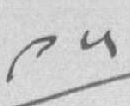༩༥
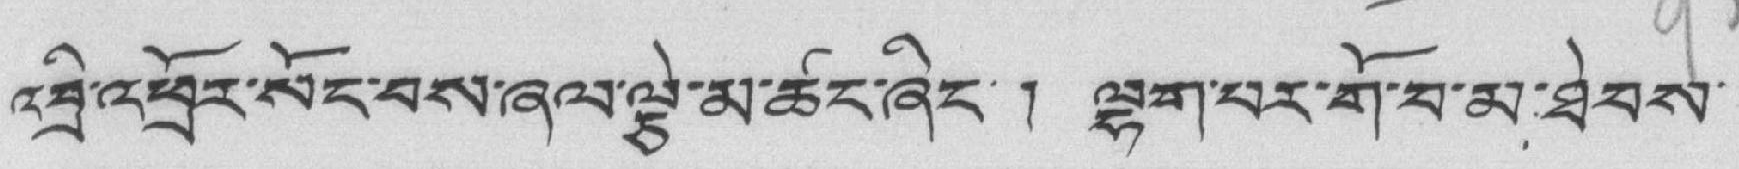འབྲི་འཕྲོར་སོང་བས་ཞལ་ལྕེ་མ་ཚང་ཞིང་ ། ལྷག་པར་གོ་བ་མ་ཐེབས་
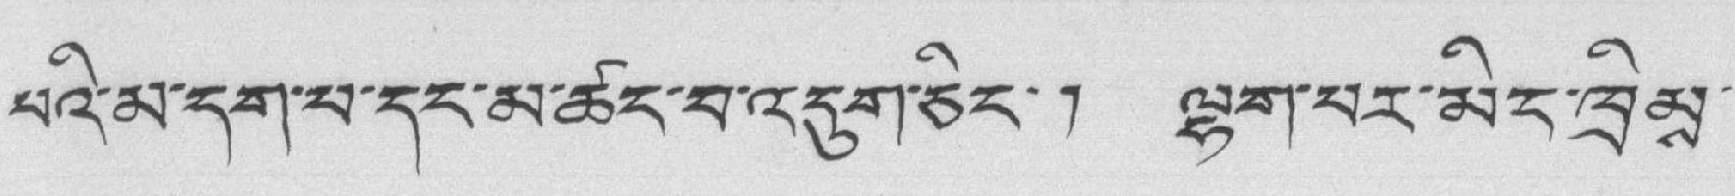པའི་མ་དག་པ་དང་མ་ཚང་བ་འདུག་ཅིང་། ལྷག་པར་མིང་ཁྲིམས་
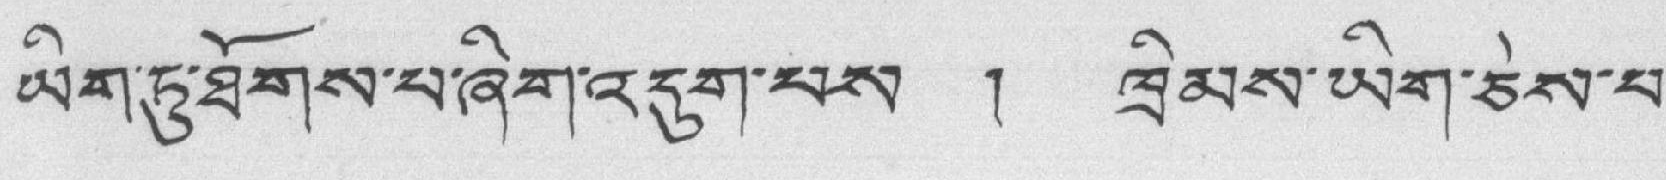ཡིག་ཏུ་ཐོགས་པ་ཞིག་འདུག་པས ། ཁྲིམས་ཡིག་ཅེས་པ་
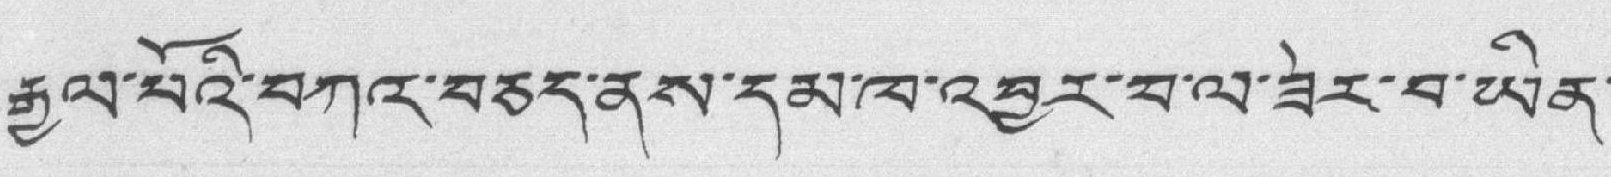རྒྱལ་པོའི་བཀའ་བཅད་ནས་དམ་ཁ་འབྱར་བ་ལ་ཟེར་བ་ཡིན་
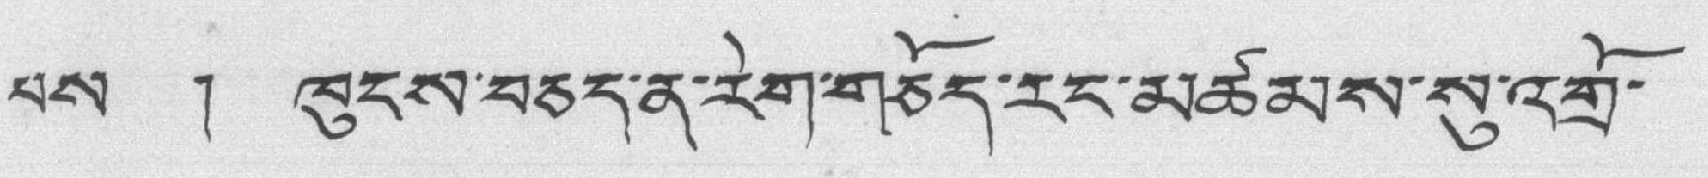པས ། ཁུངས་བཅད་ན་རིག་གཅོད་རང་མཚམས་སུ་འགྲོ་
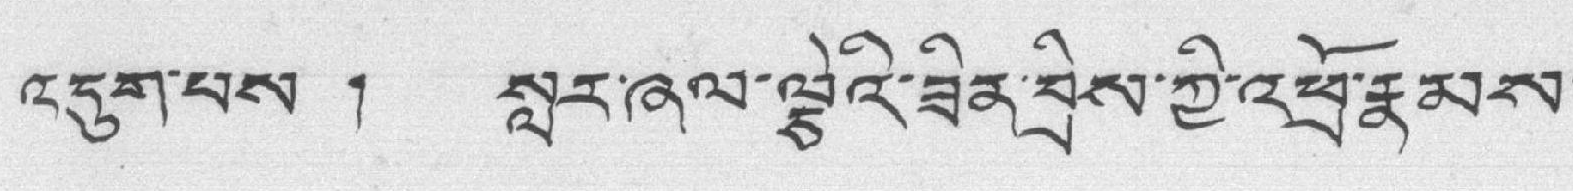འདུག་པས ། སླར་ཞལ་ལྕེའི་ཟིན་བྲིས་ཀྱི་འཕྲོ་རྣམས་
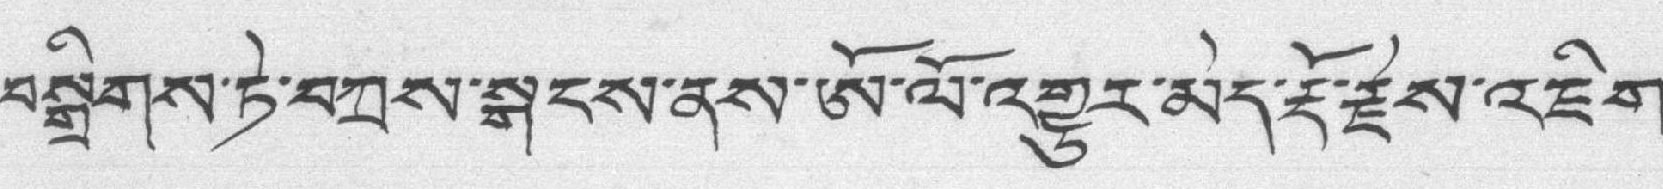བསྒྲིགས་ཏེ་བཀྲས་སྒངས་ནས་ཨོ་ལོ་འགྱུར་མེད་རྡོ་རྗེས་འཇིག་
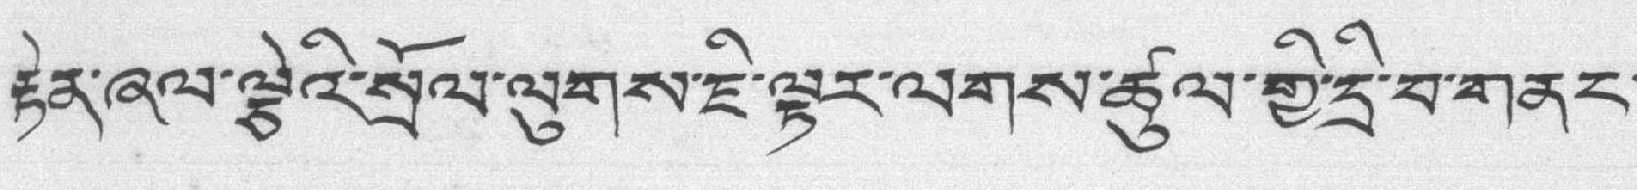རྟེན་ཞལ་ལྕེའི་སྲོལ་ལུགས་ཇི་ལྟར་ལགས་ཚུལ་གྱི་དྲི་བ་གནང་
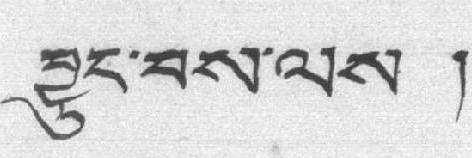བྱུང་བས་ལས །
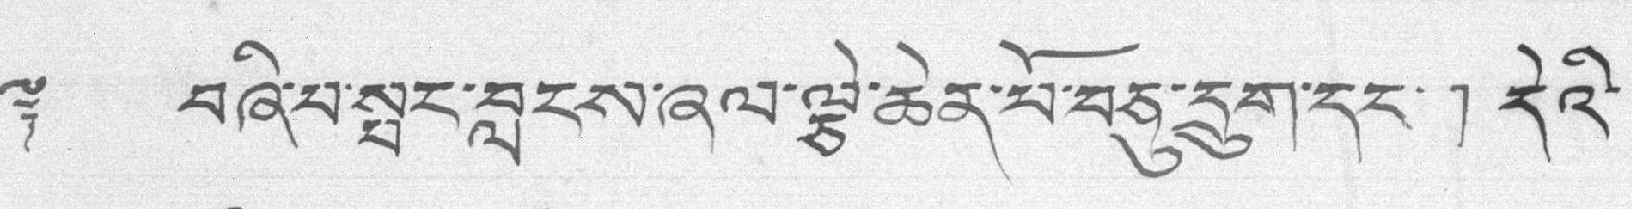༈ བཞི་པ་སྦང་བླངས་ཞལ་ལྕེ་ཆེན་པོ་བཅུ་དྲུག་དང་། དེའི་
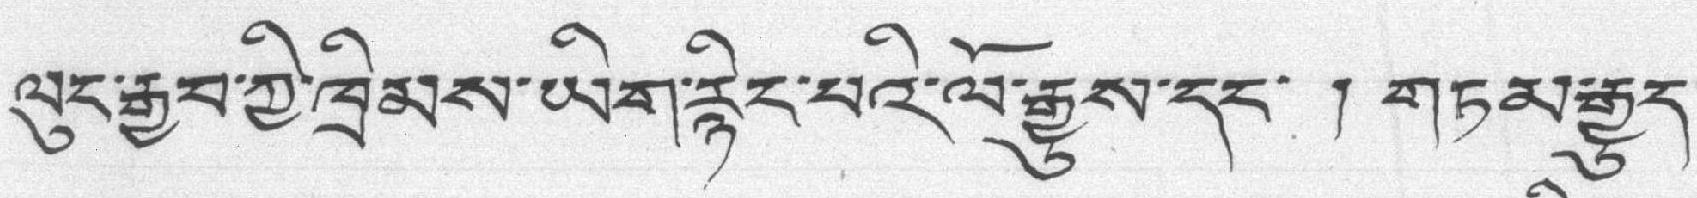ལུང་རྒྱབ་ཀྱི་ཁྲིམས་ཡག་རྙིང་པའི་ལོ་རྒྱུས་དང་། གཏམ་རྒྱུད་
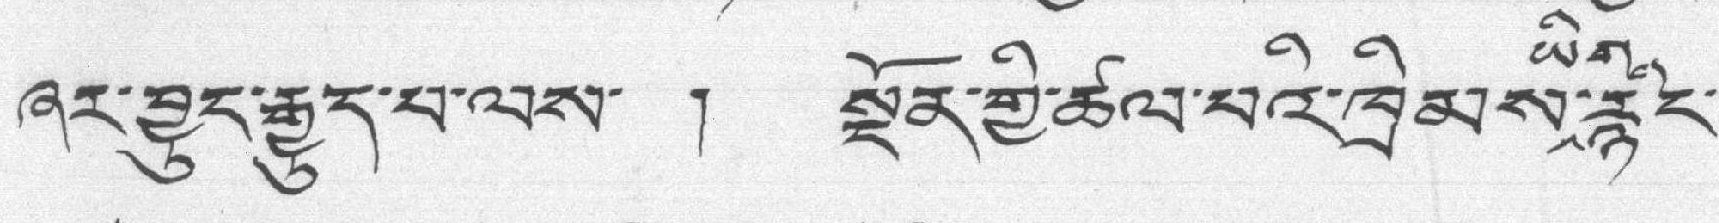ཞར་བྱུང་རྒྱུད་བ་ལས་ ། སྔོན་གྱི་ཚལ་བའ་ཁྲིམས་ཡིག་རྙིང་
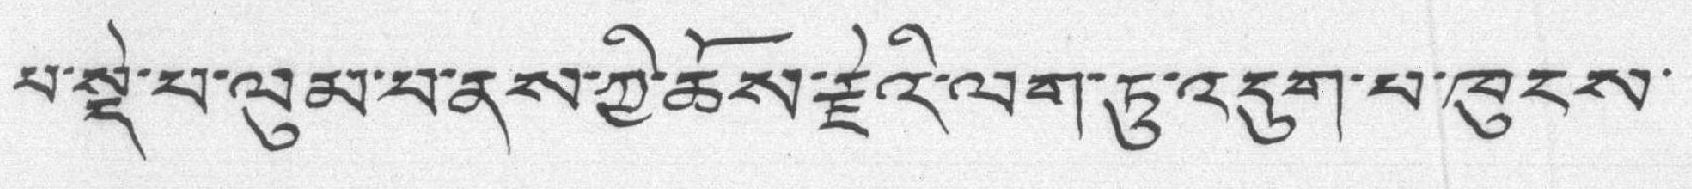པ་སྡེ་པ་ལུམ་པ་ནས་ཀྱི་ཆོས་རྫེའི་ལག་ཏུ་འདུག་པ་ཁུངས་
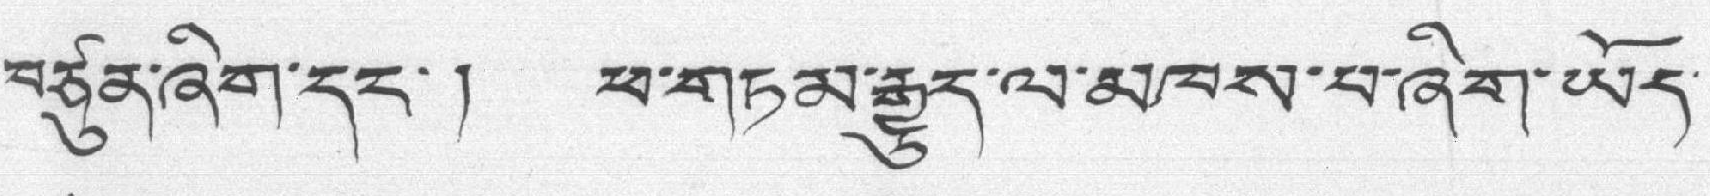བཙུན་ཞིག་དང་། ཕ་གཏམ་རྒྱུད་ལ་མཁས་པ་ཞིག་ཡོད་
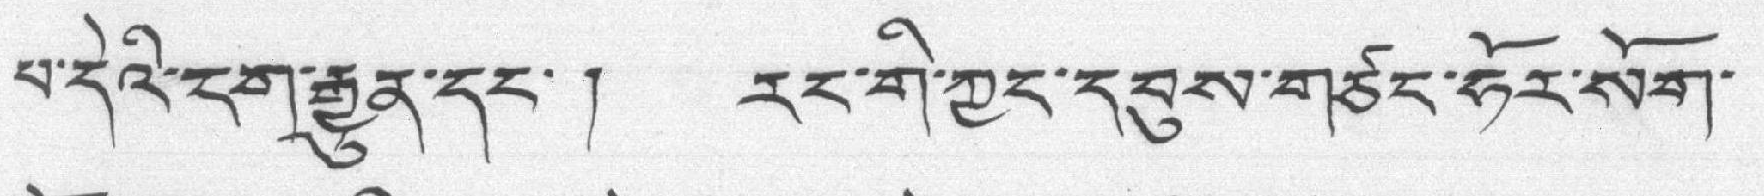པ་དེའི་ངག་རྒྱུན་དང་། རང་གི་ཀྱང་དབུས་གཙང་ཧོར་སོག་
